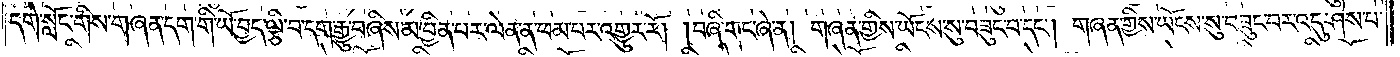དགེ་སློང་གིས་གཞན་དག་གི་ཡོ་བྱད་ལྕི་བ་དག་རྒྱུ་བཞིས་མ་བྱིན་པར་ལེན་ན་ཕམ་པར་འགྱུར་རོ། །བཞི་གང་ཞེ་ན། གཞན་གྱིས་ཡོངས་སུ་བཟུང་བ་དང༌། གཞན་གྱིས་ཡོངས་སུ་བཟུང་བར་འདུ་ཤེས་པ་
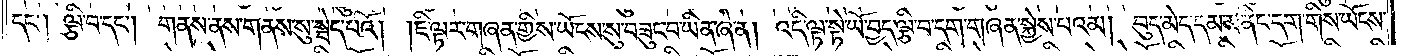དང༌། ལྕི་བ་དང༌། གནས་ནས་གནས་སུ་སྦེད་པའོ། །ཇི་ལྟར་གཞན་གྱིས་ཡོངས་སུ་བཟུང་བ་ཡིན་ཞེ་ན། འདི་ལྟ་སྟེ་ཡོ་བྱད་ལྕི་བ་དག་གཞན་སྐྱེས་པའམ། བུད་མེད་དམ་མ་ནིང་དག་གིས་ཡོངས་
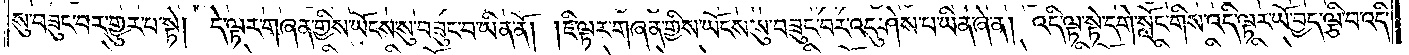སུ་བཟུང་བར་གྱུར་པ་སྟེ། དེ་ལྟར་གཞན་གྱིས་ཡོངས་སུ་བཟུང་བ་ཡིན་ནོ། །ཇི་ལྟར་གཞན་གྱིས་ཡོངས་སུ་བཟུང་བར་འདུ་ཤེས་པ་ཡིན་ཞེ་ན། འདི་ལྟ་སྟེ་དགེ་སློང་གིས་འདི་ལྟར་ཡོ་བྱད་ལྕི་བ་འདི་
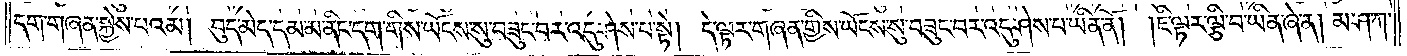དག་གཞན་སྐྱེས་པའམ། བུད་མེད་དམ་མ་ནིང་དག་གིས་ཡོངས་སུ་བཟུང་བར་འདུ་ཤེས་པ་སྟེ། དེ་ལྟར་གཞན་གྱིས་ཡོངས་སུ་བཟུང་བར་འདུ་ཤེས་པ་ཡིན་ནོ།  །ཇི་ལྟར་ལྕི་བ་ཡིན་ཞེ་ན། མ་ཤ་ཀ་
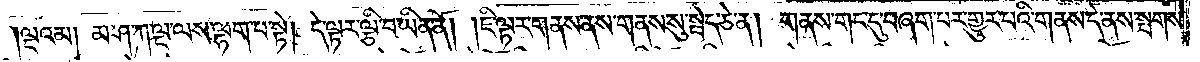ལྔའམ། མ་ཤ་ཀ་ལྔ་ལས་ལྷག་པ་སྟེ། དེ་ལྟར་ལྕི་བ་ཡིན་ནོ། །ཇི་ལྟར་གནས་ནས་གནས་སུ་སྦེད་ཅེ་ན། གནས་གང་དུ་བཞག་པར་གྱུར་པའི་གནས་དེ་ནས་སྤགས་
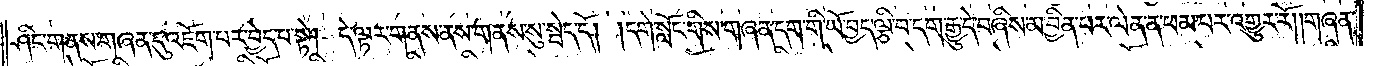ཤིང་གནས་གཞན་དུ་འཇོག་པར་བྱེད་པ་སྟེ། དེ་ལྟར་གནས་ནས་གནས་སུ་སྦེད་དོ། །དགེ་སློང་གིས་གཞན་དག་གི་ཡོ་བྱད་ལྕི་བ་དག་རྒྱུ་དེ་བཞིས་མ་བྱིན་པར་ལེན་ན་ཕམ་པར་འགྱུར་རོ། །གཞན་
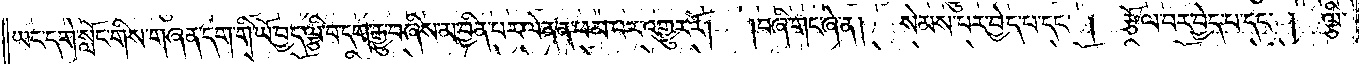ཡང་དགེ་སློང་གིས་གཞན་དག་གི་ཡོ་བྱད་ལྕི་བ་རྒྱུ་བཞིས་མ་བྱིན་པར་ལེན་ན་ཕམ་པར་འགྱུར་རོ། །བཞི་གང་ཞེ་ན། སེམས་པར་བྱེད་པ་དང༌།   རྩོལ་བར་བྱེད་པ་དང༌། ལྕི་
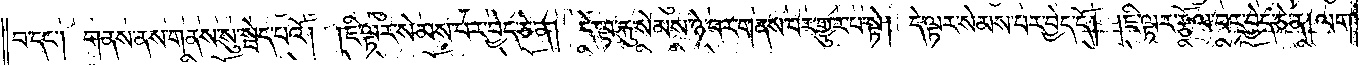བ་དང༌། གནས་ནས་གནས་སུ་སྦེད་པའོ། །ཇི་ལྟར་སེམས་པར་བྱེད་ཅེ་ན། དེ་ལྟ་རྐུ་སེམས་ཉེ་བར་གནས་པར་གྱུར་པ་སྟེ། དེ་ལྟར་སེམས་པར་བྱེད་དོ། །ཇི་ལྟར་རྩོལ་བར་བྱེད་ཅེ་ན། ལག་
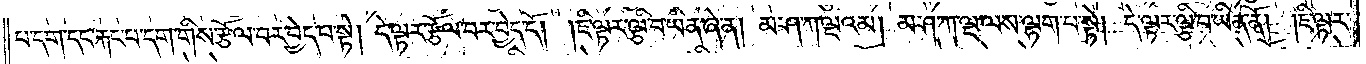པ་དག་དང་རྐང་པ་དག་གིས་རྩོལ་བར་བྱེད་པ་སྟེ། དེ་ལྟར་རྩོལ་བར་བྱེད་དོ། །ཇི་ལྟར་ལྕི་བ་ཡིན་ཞེ་ན། མ་ཤ་ཀ་ལྔའམ། མ་ཤ་ཀ་ལྔ་ལས་ལྷག་པ་སྟེ། དེ་ལྟར་ལྕི་བ་ཡིན་ནོ། །ཇི་ལྟར་
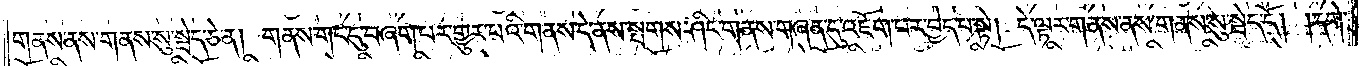གནས་ནས་གནས་སུ་སྦེད་ཅེ་ན། གནས་གང་དུ་བཞག་པར་གྱུར་པའི་གནས་དེ་ནས་སྤགས་ཤིང་གནས་གཞན་དུ་འཇོག་པར་བྱེད་པ་སྟེ། དེ་ལྟར་གནས་ནས་གནས་སུ་སྦེད་དོ། །དགེ་
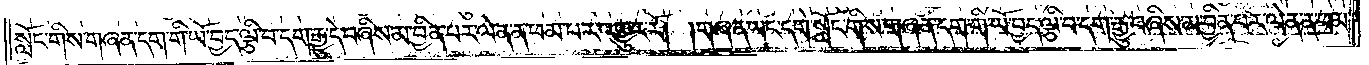སློང་གིས་གཞན་དག་གི་ཡོ་བྱད་ལྕི་བ་དག་རྒྱུ་དེ་བཞིས་མ་བྱིན་པར་ལེན་ན་ཕམ་པར་འགྱུར་རོ། །གཞན་ཡང་དགེ་སློང་གིས་གཞན་དག་གི་ཡོ་བྱད་ལྕི་བ་དག་རྒྱུ་བཞིས་མ་བྱིན་པར་ལེན་ན་ཕམ་
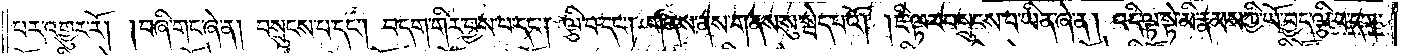པར་འགྱུར་རོ། །བཞི་གང་ཞེ་ན། བསྲུངས་པ་དང༌། བདག་གིར་བྱས་པ་དང༌། ལྕི་བ་དང༌། གནས་ནས་གནས་སུ་སྦེད་པའོ། །ཇི་ལྟར་བསྲུངས་པ་ཡིན་ཞེ་ན། འདི་ལྟ་སྟེ་མི་རྣམས་ཀྱི་ཡོ་བྱད་ལྕི་བ་དག་
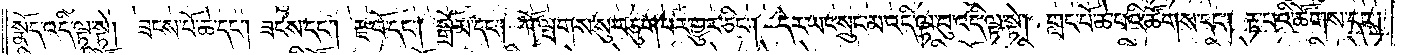སྣོད་འདི་ལྟ་སྟེ། ཟངས་པོ་ཆེ་དང༌། ཟངས་དང༌། རྫ་བོ་དང༌། སྒྲོམ་དང༌། ཀོ་ལྤགས་སུ་བཅུག་པར་གྱུར་ཅིང༌། དེར་ཡང་སྲུང་མ་འདི་ལྟ་བུ་འདི་ལྟ་སྟེ། གླང་པོ་ཆེ་བའི་ཚོགས་དང༌། རྟ་པའི་ཚོགས་དང༌།
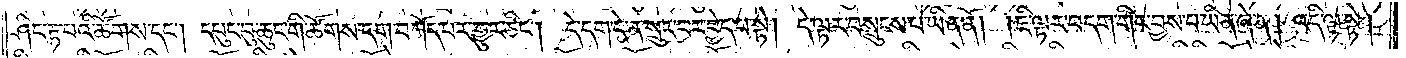ཤིང་རྟ་པའི་ཚོགས་དང༌། དཔུང་བུ་ཆུང་གི་ཚོགས་དག་བཀོད་པར་གྱུར་ཅིང༌། དེ་དག་དེ་ན་སྲུང་བར་བྱེད་པ་སྟེ། དེ་ལྟར་བསྲུངས་པ་ཡིན་ནོ། །ཇི་ལྟར་བདག་གིར་བྱས་པ་ཡིན་ཞེ་ན། འདི་ལྟ་སྟེ་།
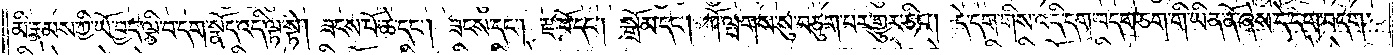མི་རྣམས་ཀྱི་ཡོ་བྱད་ལྕི་བ་དག་སྣོད་འདི་ལྟ་སྟེ། ཟངས་པོ་ཆེ་དང༌། ཟངས་དང༌། རྫ་བོ་དང༌། སྒྲོམ་དང༌། ཀོ་ལྤགས་སུ་བཅུག་པར་གྱུར་ཅིང༌། དེ་དག་གིས་འདི་དག་བདག་ཅག་གི་ཡིན་ནོ་ཞེས་དེ་དག་བདག་
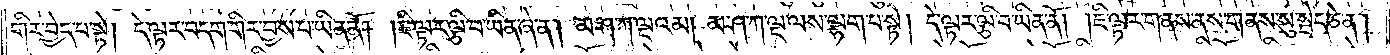གིར་བྱེད་པ་སྟེ། དེ་ལྟར་བདག་གིར་བྱས་པ་ཡིན་ནོ། །ཇི་ལྟར་ལྕི་བ་ཡིན་ཞེ་ན། མ་ཤ་ཀ་ལྔའམ། མ་ཤ་ཀ་ལྔ་ལས་ལྷག་པ་སྟེ། དེ་ལྟར་ལྕི་བ་ཡིན་ནོ། །ཇི་ལྟར་གནས་ནས་གནས་སུ་སྦེད་ཅེ་ན།
